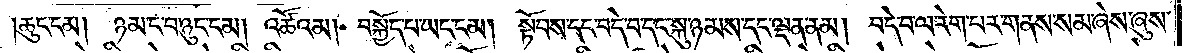།ཆུང་ངམ། ཉམ་ང་བ་ཉུང་ངམ། འཚོའམ། བསྐྱོད་པ་ཡང་ངམ། སྟོབས་དང་བདེ་བ་དང་སྐུ་ཉམས་དང་ལྡན་ནམ། བདེ་བ་ལ་རེག་པར་གནས་སམ་ཞེས་ཞུས་
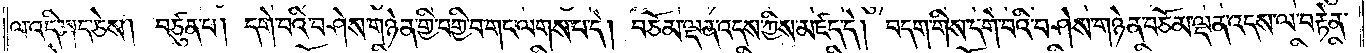ལ་འདི་སྐད་ཅེས། བཙུན་པ། དགེ་བའི་བཤེས་གཉེན་གྱི་བགྱི་བ་གང་ལགས་པ་དེ། བཅོམ་ལྡན་འདས་ཀྱིས་མཛད་དེ། བདག་གིས་དགེ་བའི་བཤེས་གཉེན་བཅོམ་ལྡན་འདས་ལ་བརྟེན་
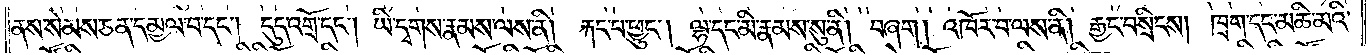ནས་སེམས་ཅན་དམྱལ་བ་དང༌། དུད་འགྲོ་དང༌། ཡི་དྭགས་རྣམས་ལས་ནི། རྐང་པ་ཕྱུང༌། ལྷ་དང་མི་རྣམས་སུ་ནི། བཞག །འཁོར་བ་ལས་ནི། རྒྱང་བསྲིངས། ཁྲག་དང་མཆི་མའི་
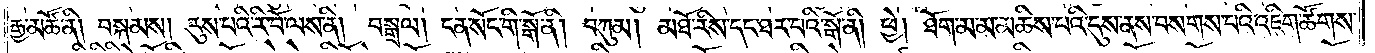རྒྱ་མཚོ་ནི། བསྐམས། རུས་པའི་རི་བོ་ལས་ནི། བསྒྲལ། ངན་སོང་གི་སྒོ་ནི། བཀུམ། མཐོ་རིས་དང་ཐར་པའི་སྒོ་ནི། ཕྱེ། ཐོག་མ་མ་མཆིས་པའི་དུས་ནས་བསགས་པའི་འཇིག་ཚོགས་
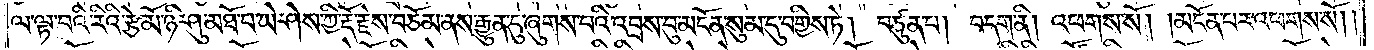ལ་ལྟ་བའི་རིའི་རྩེ་མོ་ཉི་ཤུ་མཐོ་པ་ཡེ་ཤེས་ཀྱི་རྡོ་རྗེས་བཅོམ་ནས་རྒྱུན་དུ་ཞུགས་པའི་འབྲས་བུ་མངོན་སུམ་དུ་བགྱིས་ཏེ། བཙུན་པ། བདག་ནི། འཕགས་སོ། །མངོན་པར་འཕགས་སོ༎
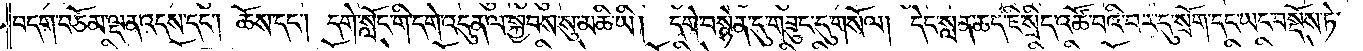བདག་བཅོམ་ལྡན་འདས་དང༌། ཆོས་དང༌། དགེ་སློང་གི་དགེ་འདུན་ལ་སྐྱབས་སུ་མཆི་ཡི། དགེ་བསྙེན་དུ་གཟུང་དུ་གསོལ། དེང་སླན་ཆད་ཇི་སྲིད་འཚོ་བའི་བར་དུ་སྲོག་དང་ཡང་བསྔོས་ཏེ་
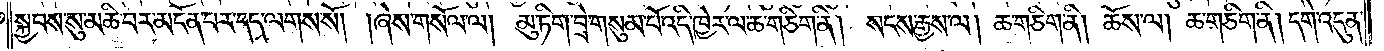སྐྱབས་སུ་མཆི་བར་མངོན་པར་དད་ལགས་སོ། །ཞེས་གསོལ་ལ། མུ་ཏིག་བྲེ་གསུམ་པོ་འདི་ཁྱེར་ལ་ཆ་གཅིག་ནི། སངས་རྒྱས་ལ། ཆ་གཅིག་ནི། ཆོས་ལ། ཆ་གཅིག་ནི། དགེ་འདུན་
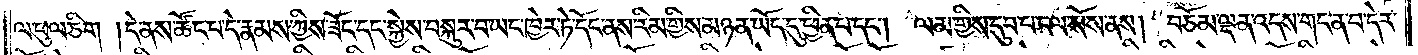ལ་ཕུལ་ཅིག །དེ་ནས་ཚོང་པ་དེ་རྣམས་ཀྱིས་ཟོང་དང་སྐྱེས་བསྐུར་པ་ཡང་ཁྱེར་ཏེ་དོང་ནས་རིམ་གྱིས་མཉན་ཡོད་དུ་ཕྱིན་པ་དང༌། ལམ་གྱིས་དུབ་པ་ངལ་སོས་ནས། བཅོམ་ལྡན་འདས་གང་ན་བ་དེར་
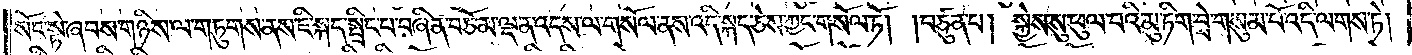སོང་སྟེ་ཞབས་གཉིས་ལ་གཏུགས་ནས་ཇི་སྐད་སྤྲིང་པ་བཞིན་བཅོམ་ལྡན་འདས་ལ་གསོལ་ནས་འདི་སྐད་ཅེས་ཀྱང་གསོལ་ཏོ། །བཙུན་པ། སྐྱེས་སུ་ཕུལ་བའི་མུ་ཏིག་བྲེ་གསུམ་པོ་འདི་ལགས་ཏེ།
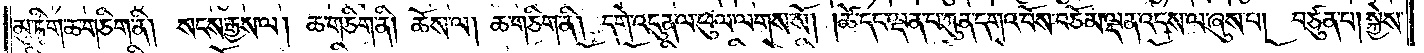མུ་ཏིག་ཆ་གཅིག་ནི། སངས་རྒྱས་ལ། ཆ་གཅིག་ནི། ཆོས་ལ། ཆ་གཅིག་ནི། དགེ་འདུན་ལ་ཕུལ་ལགས་སོ། །ཚེ་དང་ལྡན་པ་ཀུན་དགའ་བོས་བཅོམ་ལྡན་འདས་ལ་ཞུས་པ། བཙུན་པ། སྐྱེས་
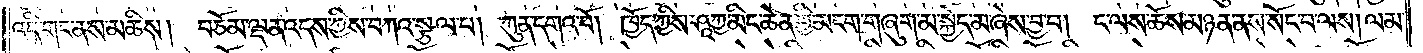འདི་གང་ནས་མཆིས། བཅོམ་ལྡན་འདས་ཀྱིས་བཀའ་སྩལ་པ། ཀུན་དགའ་བོ། ཁྱོད་ཀྱིས་ཤཱཀྱ་མིང་ཆེན་གྱི་མངག་གཞུག་མ་སྐྱེད་མ་ཞེས་བྱ་བ། ང་ལས་ཆོས་མཉན་ནས་སོང་བ་ལས། ལམ་
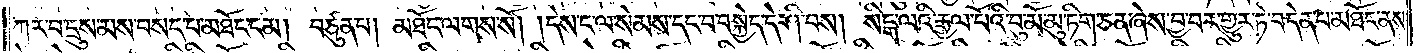ཀར་བ་དྲུས་མས་བསད་པ་མཐོང་ངམ། བཙུན་པ། མཐོང་ལགས་སོ། །དེས་ང་ལ་སེམས་དང་བ་བསྐྱེད་དེ་ཤི་བས། སིངྒ་ལའི་རྒྱལ་པོའི་བུ་མོ་མུ་ཏིག་ཅན་ཞེས་བྱ་བར་གྱུར་ཏེ་བདེན་པ་མཐོང་ནས་
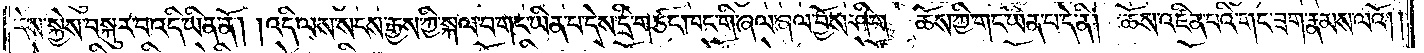དེས་སྐྱེས་བསྐུར་བ་འདི་ཡིན་ནོ། །འདི་ལས་སངས་རྒྱས་ཀྱི་སྐལ་བ་གང་ཡིན་པ་དེས་དྲི་གཙང་ཁང་གི་ཞལ་ཞལ་བྱོས་ཤིག །ཆོས་ཀྱི་གང་ཡིན་པ་དེ་ནི། ཆོས་འཛིན་པའི་གང་ཟག་རྣམས་ལའོ། །
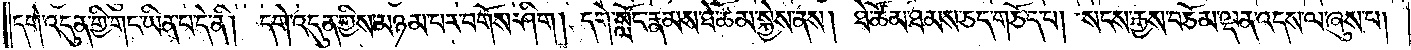དགེ་འདུན་གྱི་གང་ཡིན་པ་དེ་ནི། དགེ་འདུན་གྱིས་མཉམ་པར་བགོས་ཤིག །དགེ་སློང་རྣམས་ཐེ་ཚོམ་སྐྱེས་ནས། ཐེ་ཚོམ་ཐམས་ཅད་གཅོད་པ། སངས་རྒྱས་བཅོམ་ལྡན་འདས་ལ་ཞུས་པ།
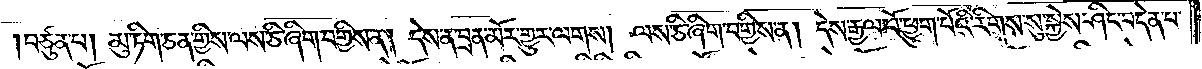བཙུན་པ། མུ་ཏིག་ཅན་གྱིས་ལས་ཅི་ཞིག་བགྱིས་ན། དེས་ན་བྲན་མོར་གྱུར་ལགས། ལས་ཅི་ཞིག་བགྱིས་ན། དེས་རྒྱལ་པོ་ཕྱུག་པོའི་རིགས་སུ་སྐྱེས་ཤིང་བདེན་པ་
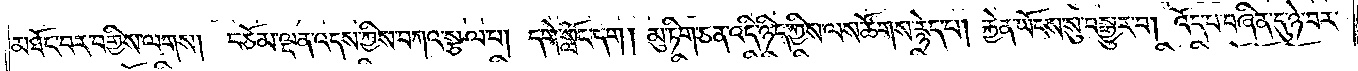མཐོང་བར་བགྱིས་ལགས། བཅོམ་ལྡན་འདས་ཀྱིས་བཀའ་སྩལ་པ། དགེ་སློང་དག །མུ་ཏིག་ཅན་འདི་ཉིད་ཀྱིས་ལས་ཚོགས་རྙེད་པ། རྐྱེན་ཡོངས་སུ་བསྒྱུར་བ། འོད་པ་བཞིན་དུ་ཉེ་བར་
